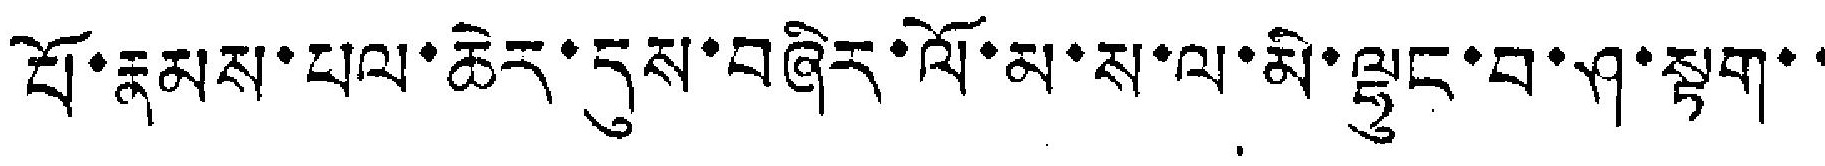པོ་རྣམས་ཕལ་ཆེར་དུས་བཞིར་ལོ་མ་ས་ལ་མི་ལྷུང་བ་ཤ་སྟག་་
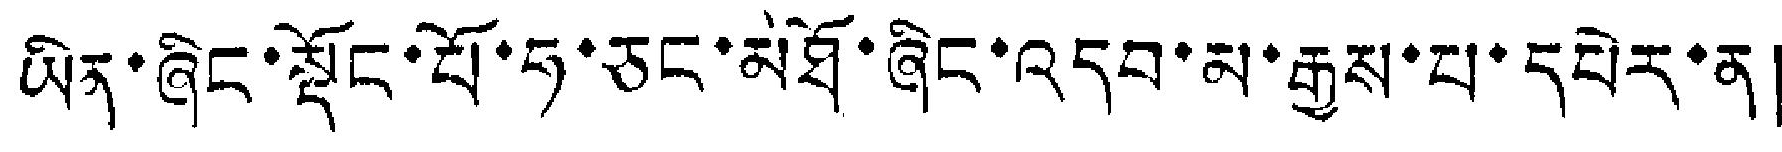ཡིན་ཞིང་སྡོང་པོ་ཧ་ཅང་མཐོ་ཞིང་འདབ་མ་རྒྱས་པ་དཔེར་ན།
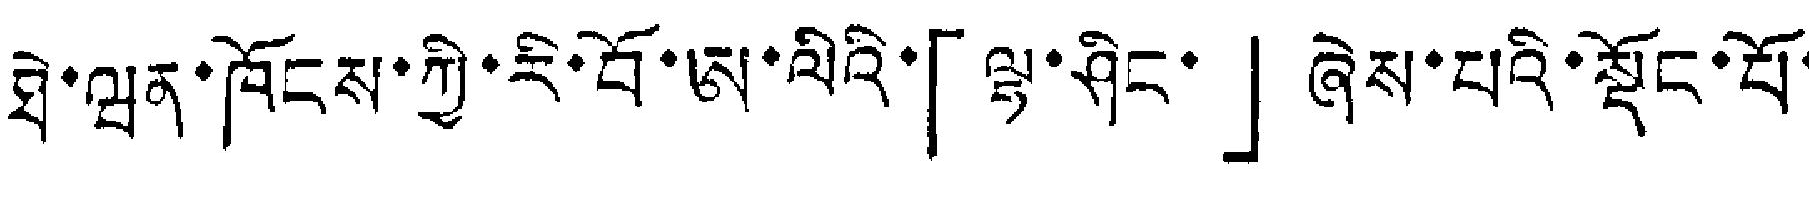ཐེ་ཝན་ཁོངས་ཀྱི་རི་བོ་ཨ་ལིའི་「ལྷ་ཤིང་」ཞེས་པའི་སྡོང་པོ་
